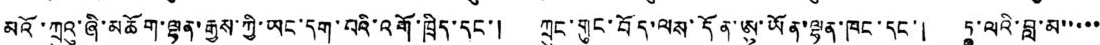མའོ་ཀྲུའུ་ཞི་མཆོག་ལྷན་རྒྱས་ཀྱི་ཡང་དག་པའི་འགོ་ཁྲིད་དང་། ཀྲུང་གུང་བོད་ལས་དོན་ཨུ་ཡོན་ལྷན་ཁང་དང་། ཏཱ་ལའི་བླ་མ་་་་་
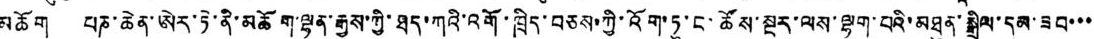མཆོག པཎ་ཆེན་ཨེར་ཏེ་ནི་མཆོག་ལྷན་རྒྱས་ཀྱི་ཐད་ཀའི་འགོ་ཁྲིད་བཅས་ཀྱི་འོག་ཏུ་ང་ཚོས་སྔར་ལས་ལྷག་པའི་མཐུན་སྒྲིལ་དམ་ཟབ་་་
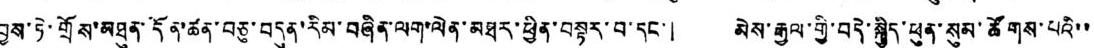བྱས་ཏེ་གྲོས་མཐུན་དོན་ཚན་བཅུ་བདུན་རིམ་བཞིན་ལག་ལེན་མཐར་ཕྱིན་བསྟར་བ་དང་། མེས་རྒྱལ་གྱི་བདེ་སྐྱིད་ཕུན་སུམ་ཚོགས་པའི་་
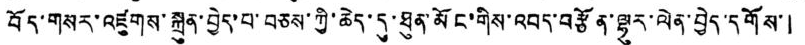བོད་གསར་འཛུགས་སྐྲུན་བྱེད་པ་བཅས་ཀྱི་ཆེད་དུ་ཐུན་མོང་གིས་འབད་བརྩོན་ལྷུར་ལེན་བྱེད་དགོས་།
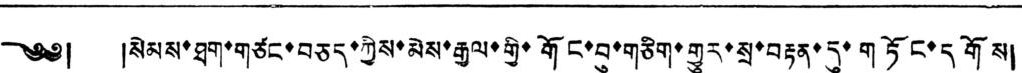༄༅། །སེམས་ཐག་གཙང་བཅད་ཀྱིས་མེས་རྒྱལ་གྱི་གོང་བུ་གཅིག་གྱུར་སྲ་བརྟན་དུ་གཏོང་དགོས།
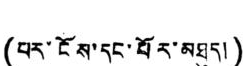(པར་ངོས་དང་པོར་མཐུད།)
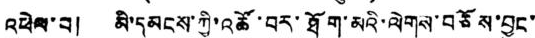འཕེལ་བ། མི་དམངས་ཀྱི་འཚོ་བར་ཐོག་མའི་ལེགས་བཅོས་བྱུང་
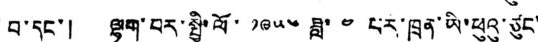བ་དང་། ལྷག་པར་སྤྱི་ལོ་ ༡༩༥༦ ཟླ་ ༤ པར་ཁྲན་ཡི་ཕུའུ་ཙུང་
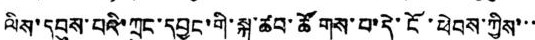ལིས་དབུས་པའི་ཀྲུང་དབྱང་གི་སྐུ་ཚབ་ཚོགས་པ་དེ་ངོ་ཕེབས་ཀྱིས་་་
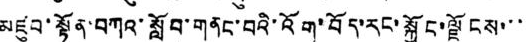མཛུབ་སྟོན་བཀའ་སློབ་གནང་བའི་འོག་བོད་རང་སྐྱོང་ལྗོངས་་་་
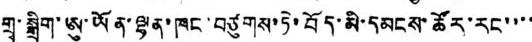གྲྭ་སྒྲིག་ཨུ་ཡོན་ལྷན་ཁང་བཙུགས་ཏེ་བོད་མི་དམངས་ཚོར་རང་་་་
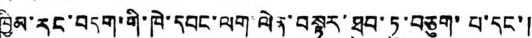ཁྱིམ་རང་བདག་གི་ཁེ་དབང་ལག་ལེན་བསྟར་ཐུབ་ཏུ་བཅུག་པ་དང་།
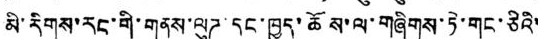མི་རིགས་རང་གི་གནས་ལུཌ་དང་ཁྱད་ཆོས་ལ་གཞིགས་ཏེ་གང་ཅིའི་
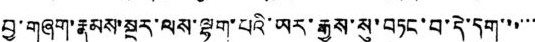བྱ་གཞག་རྣམས་སྔར་ལས་ལྷག་པའི་ཡར་རྒྱས་སུ་བཏང་བ་དེ་དག་་་་་་
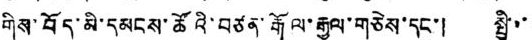གིས་བོད་མི་དམངས་ཚོའི་བཙན་རྒོལ་རྒྱལ་གཅེས་དང་། སྤྱི་་་
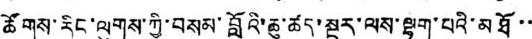ཚོགས་རིང་ལུགས་ཀྱི་བསམ་བློའི་ཆུ་ཚད་སྔར་ལས་ལྷག་པའི་མཐོ་་
